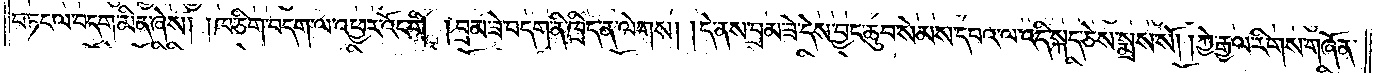བཏང་ལ་བདག་མིན་ཞེས། །ཁ་ཅིག་བདག་ལ་འཕྱར་འོང་གི། །བྲམ་ཟེ་བདག་ནི་ཁྲིད་ན་ལེགས། །དེ་ནས་བྲམ་ཟེ་དེས་བྱང་ཆུབ་སེམས་དཔའ་ལ་འདི་སྐད་ཅེས་སྨྲས་སོ། །ཀྱེ་རྒྱལ་རིགས་གཞོན་
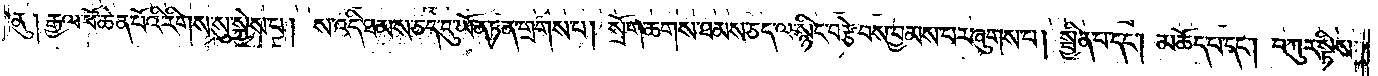ནུ། རྒྱལ་པོ་ཆེན་པོའི་རིགས་སུ་སྐྱེས་པ། ས་འདི་ཐམས་ཅད་དུ་ཡོན་ཏན་གྲགས་པ། སྲོག་ཆགས་ཐམས་ཅད་ལ་སྙིང་བརྩེ་བས་བྱམས་པར་ཞུགས་པ། སྦྱིན་པ་དང༌། མཆོད་པ་དང༌། བཀུར་སྟིས་
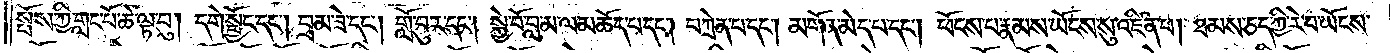སྤོས་ཀྱི་གླང་པོ་ཆེ་ལྟ་བུ། དགེ་སྦྱོང་དང༌། བྲམ་ཟེ་དང༌། གློ་བུར་དང༌། སྐྱེ་བོ་བླ་མ་ལ་མཆོད་པ་དང༌། བཀྲེན་པ་དང༌། མགོན་མེད་པ་དང༌། ཕོངས་པ་རྣམས་ཡོངས་སུ་འཛིན་པ། ཐམས་ཅད་ཀྱི་རེ་བ་ཡོངས་
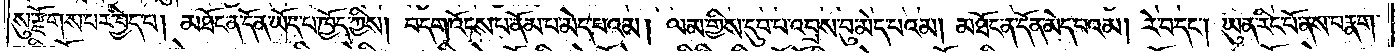སུ་རྫོགས་པར་བྱེད་པ། མཐོང་ན་དོན་ཡོད་པ་ཁྱོད་ཀྱིས། བདག་འོངས་པ་ནོམ་པ་མེད་པའམ། ལམ་གྱིས་དུབ་པ་འབྲས་བུ་མེད་པའམ། མཐོང་ན་དོན་མེད་པའམ། རེ་བ་དང༌། ཡུན་རིང་པོ་ནས་བརྣག་
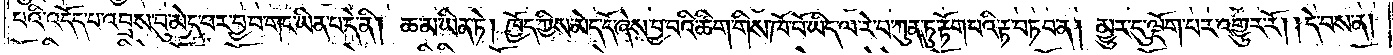པའི་འདོད་པ་འབྲས་བུ་མེད་པར་བྱ་བ་གང་ཡིན་པ་དེ་ནི། ཆ་མ་ཡིན་ཏེ། ཁྱོད་ཀྱིས་མེད་དོ་ཞེས་བྱ་བའི་ཚིག་གིས་ཁོ་བོ་ཡིད་ལ་རེ་བ་ཀུན་ཏུ་རྟོག་པའི་རྟ་བཏབ་ན། མྱུར་དུ་ལྡོག་པར་འགྱུར་རོ། །དེ་བས་ན།
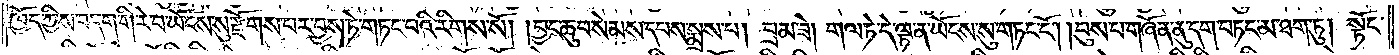ཁྱོད་ཀྱིས་བདག་གི་རེ་བ་ཡོངས་སུ་རྫོགས་པར་བྱས་ཏེ་གཏང་བའི་རིགས་སོ། །བྱང་ཆུབ་སེམས་དཔས་སྨྲས་པ། བྲམ་ཟེ། གལ་ཏེ་དེ་ལྟ་ན་ཡོངས་སུ་གཏང་ངོ༌། །བུས་པ་གཞོན་ནུ་དག་བཏང་མ་ཐག་ཏུ། སྟོང་
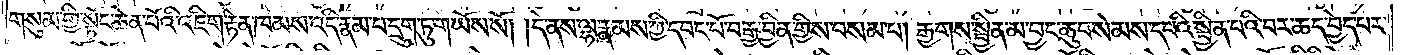གསུམ་གྱི་སྟོང་ཆེན་པོའི་འཇིག་རྟེན་ཁམས་འདི་རྣམ་པ་དྲུག་ཏུ་གཡོས་སོ། །དེ་ནས་ལྷ་རྣམས་ཀྱི་དབང་པོ་བརྒྱ་བྱིན་གྱིས་བསམ་པ། རྒྱགས་སྦྱིན་མ་བྱང་ཆུབ་སེམས་དཔའི་སྦྱིན་པའི་བར་ཆད་བྱེད་པར་
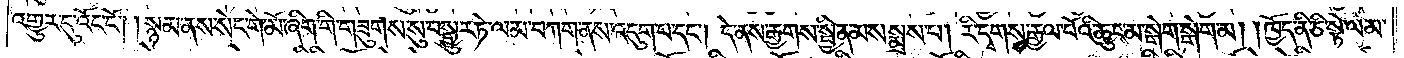འགྱུར་དུ་འོང་ངོ༌། །སྙམ་ནས་སེང་གེ་མོ་ཞིག་གི་གཟུགས་སུ་བསྒྱུར་ཏེ་ལམ་བཀག་ནས་འདུག་པ་དང༌། དེ་ནས་རྒྱགས་སྦྱིན་མས་སྨྲས་པ། རི་དྭགས་རྒྱལ་པོའི་ཆུང་མ་སྒེག་སྒེག་མ། །ཁྱོད་ནི་ཅི་སྟེ་ལམ་
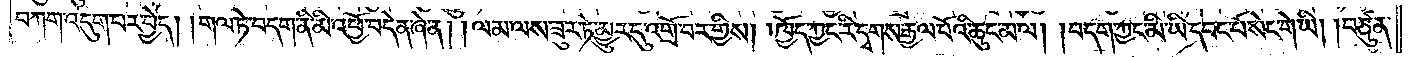བཀག་འདུག་པར་བྱེད། །གལ་ཏེ་བདག་ནི་མི་འཕྱོ་བདེན་ཞེ་ན། ལམ་ལས་ཟུར་ཏེ་མྱུར་དུ་འགྲོ་བར་གྱིས། ཁྱོད་ཀྱང་རི་དྭགས་རྒྱལ་པོའི་ཆུང་མ་ལ། བདག་ཀྱང་མི་ཡི་དབང་པོ་སེང་གེ་ཡི། །བཙུན་
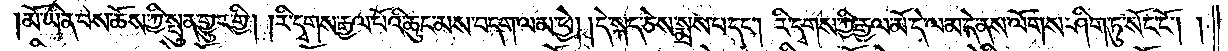མོ་ཡིན་པས་ཆོས་ཀྱི་སྤུན་གྱུར་གྱི། །རི་དྭགས་རྒྱལ་པོའི་ཆུང་མས་བདག་ལམ་ཕྱེ། །དེ་སྐད་ཅེས་སྨྲས་པ་དང༌། རི་དྭགས་ཀྱི་རྒྱལ་མོ་དེ་ལམ་དེ་ནས་ལོགས་ཤིག་ཏུ་སོང་ངོ༌། །
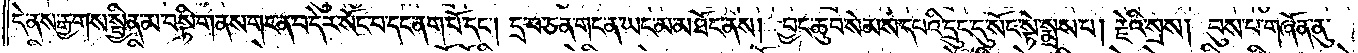དེ་ནས་རྒྱགས་སྦྱིན་མ་བསྟི་གནས་གང་ན་པ་དེར་སོང་བ་དང་ནག་པོ་དང༌། དྲ་བ་ཅན་གང་ན་ཡང་མ་མཐོང་ནས། བྱང་ཆུབ་སེམས་དཔའི་དྲུང་དུ་སོང་སྟེ་སྨྲས་པ། རྗེའི་སྲས། བུས་པ་གཞོན་ནུ་
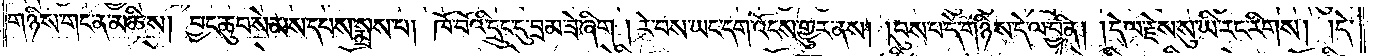གཉིས་གང་ན་མཆིས། བྱང་ཆུབ་སེམས་དཔས་སྨྲས་པ། ཁོ་བོའི་དྲུང་དུ་བྲམ་ཟེ་ཞིག །རེ་བས་ཡང་དག་འོངས་གྱུར་ནས། །བུས་པ་དེ་གཉིས་དེ་ལ་བྱིན། །དེ་ལ་རྗེས་སུ་ཡི་རང་རིགས། །དེ་
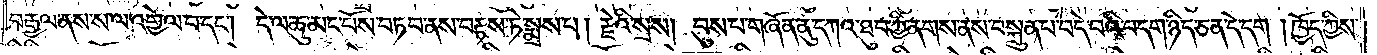བརྒྱལ་ནས་ས་ལ་འགྱེལ་བ་དང༌། དེ་ལ་ཆུ་མང་པོས་བཏབ་ནས་བརྟས་ཏེ་སྨྲས་པ། རྗེའི་སྲས། བུས་པ་གཞོན་ནུ་དཀའ་ཐུབ་ཀྱི་ནགས་ནས་བསྐྲུན་པ་བདེ་བའི་བདག་ཉིད་ཅན་དེ་དག །ཁྱོད་ཀྱིས་
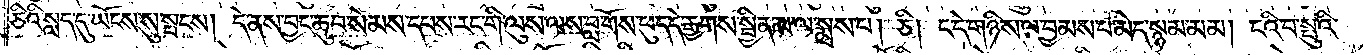ཅིའི་སླད་དུ་ཡོངས་སུ་སྤངས། དེ་ནས་བྱང་ཆུབ་སེམས་དཔས་རང་གི་ལུས་ལས་བླ་གོས་ཕུད་དེ་རྒྱགས་སྦྱིན་མ་ལ་སྨྲས་པ། ཅི། ང་དེ་གཉིས་ལ་བྱམས་པ་མེད་སྙམ་མམ། ངའི་བ་སྤུའི་
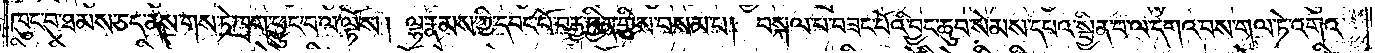ཁུང་བ་ཐམས་ཅད་ནས་གས་ཏེ་ཁྲག་ཕྱུང་བ་ལ་ལྟོས། ལྷ་རྣམས་ཀྱི་དབང་པོ་བརྒྱ་བྱིན་གྱིས་བསམ་པ། བསྐལ་པ་བཟང་པོའི་བྱང་ཆུབ་སེམས་དཔའ་སྦྱིན་པ་ལ་དགའ་བས་གལ་ཏེ་འགའ་
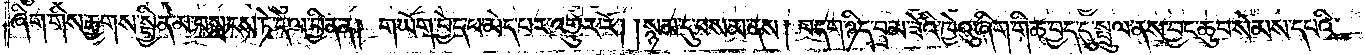ཞིག་གིས་རྒྱགས་སྦྱིན་མ་བསླངས་ཏེ་དེ་ལ་བྱིན་ན། གཡོག་བྱེད་པ་མེད་པར་འགྱུར་རོ། །སྙམ་དུ་བསམ་ནས། བདག་ཉིད་བྲམ་ཟེའི་ཁྱེའུ་ཞིག་གི་ཆ་བྱད་དུ་སྤྲུལ་ནས་བྱང་ཆུབ་སེམས་དཔའི་
